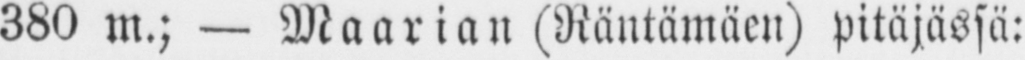380 m.; — Maarian (Räntämäen) pitäjässä:
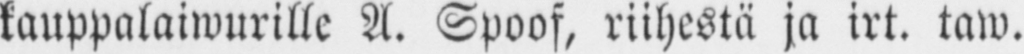kauppalaiwurille A. Spoof, riihestä ja irt. taw.
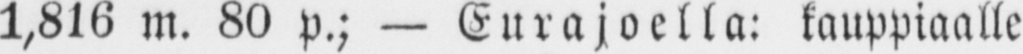1,816 m. 80 p.; — Eurajoella: kauppiaalle
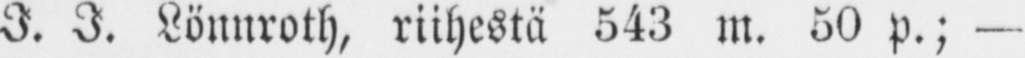J. J. Lönnroth, riihestä 543 m. 50 p.; —
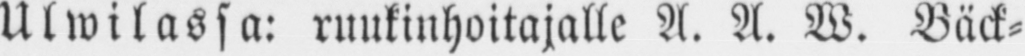Ulwilassa: ruukinhoitajalle A. A. W. Bäck-
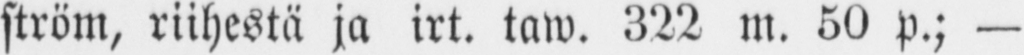ström, riihestä ja irt. taw. 322 m. 50 p.; —
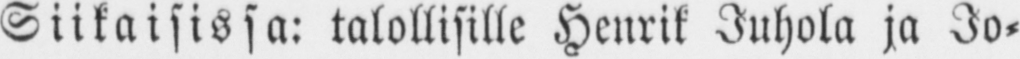Siikaisissa: talollisille Henrik Juhola ja Jo-
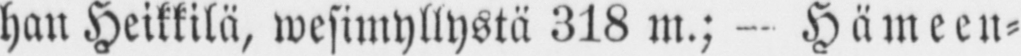han Heikkilä, wesimyllystä 318 m.; - Hämeen-
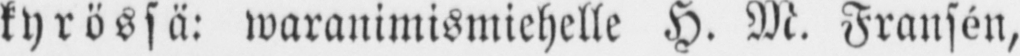kyrössä: waranimismiehelle H. M. Fransén,
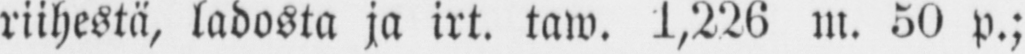riihestä, ladosta ja irt. taw. 1,226 m. 50 p.;
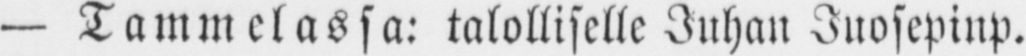— Tammelassa: talolliselle Juhan Juosepinp.
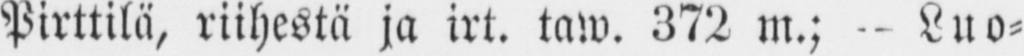Pirttilä, riihestä ja irt. taw. 372 m.; - Luo-
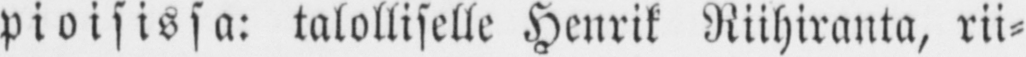pioisissa: talolliselle Henrik Riihiranta, rii-
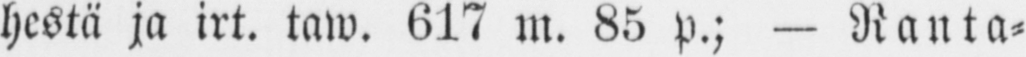hestä ja irt. taw. 617 m. 85 p.; — Ranta-
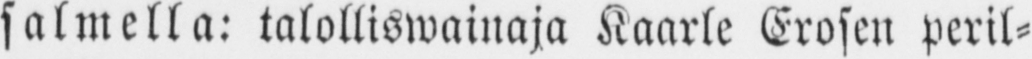salmella: talolliswainaja Kaarle Erosen peril-
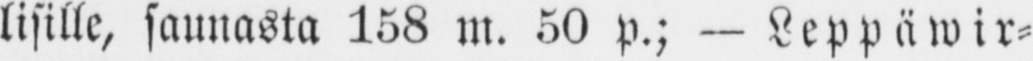lisille, saunasta 158 m. 50 p.; — Leppäwir-
